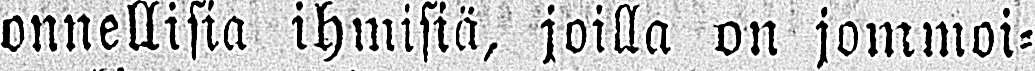onnellisia ihmisiä, joilla on jommoi-
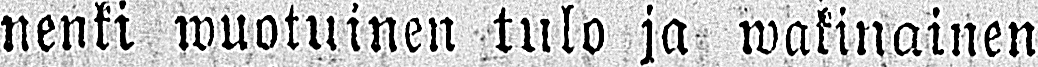nenki wuotuinen tulo ja wakinainen
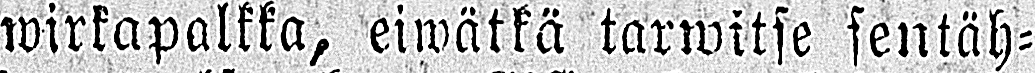wirkapalkka, eiwätkä tarwitse sentäh-
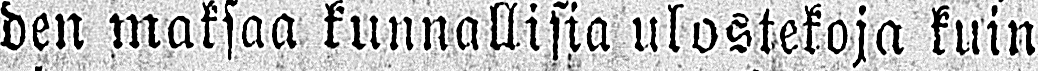den maksaa kunnallisia ulostekoja kuin
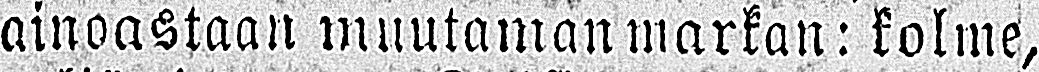ainoastaan muutaman markan: kolme,
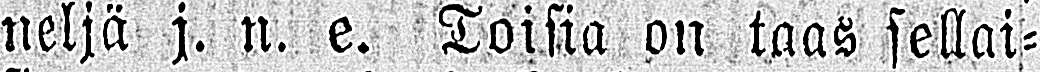neljä j. n. e. Toisia on taas sellai-
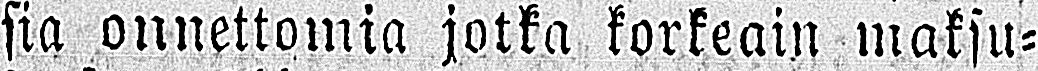sia onnettomia jotka korkeain maksu-
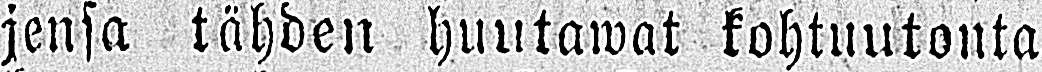jensa tähden huutawat kohtuutonta
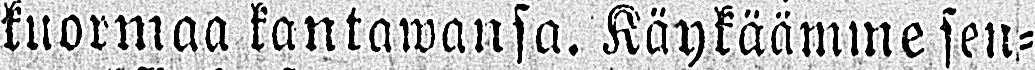kuormaa kantawansa. Käykäämme sen-
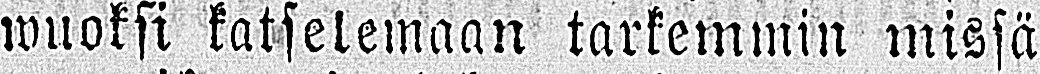wuoksi katselemaan tarkemmin missä
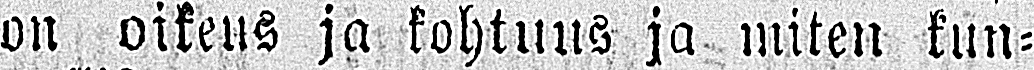on oikeus ja kohtuus ja miten kun-
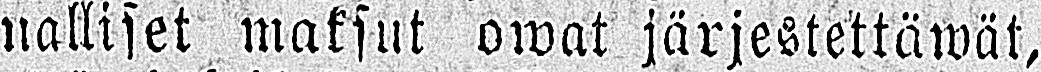nalliset maksut owat järjestettäwät,
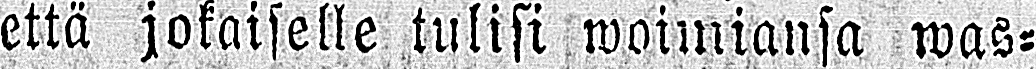että jokaiselle tulisi woimiansa was-
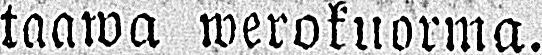taawa werokuorma.
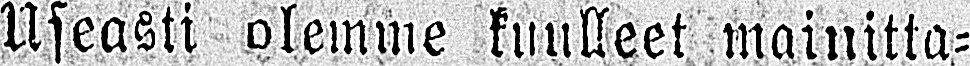Useasti olemme kuulleet mainitta-
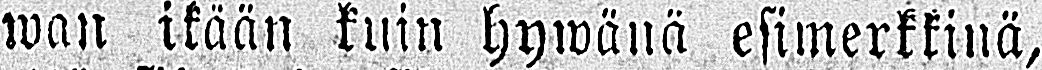wan ikään kuin hywänä esimerkkinä,
